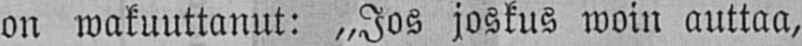on wakuuttanut: „Jos joskus woin auttaa,
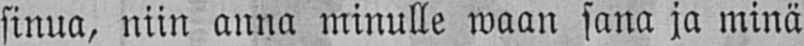sinua, niin anna minulle waan sana ja minä
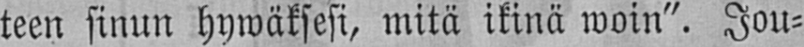teen sinun hywäksesi, mitä ikinä woin". Jou-
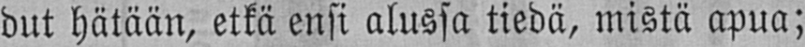dut hätään, etkä ensi alussa tiedä, mistä apua;
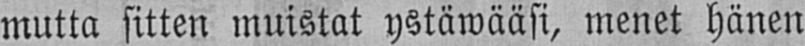mutta sitten muistat ystäwääsi, menet hänen
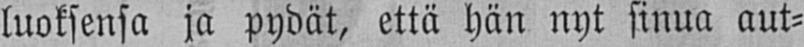luoksensa ja pydät, että hän nyt sinua aut-
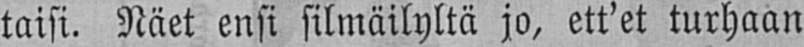taisi. Näet ensi silmäilyltä jo, ett'et turhaan
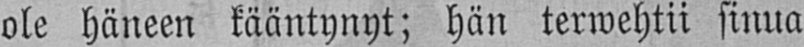ole häneen kääntynyt; hän terwehtii sinua
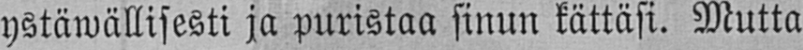ystäwällisesti ja puristaa sinun kättäsi. Mutta
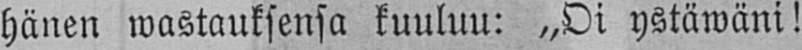hänen wastauksensa kuuluu: „Oi ystäwäni!
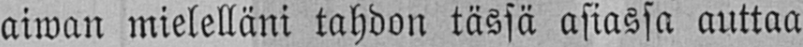aiwan mielelläni tahdon tässä asiassa auttaa
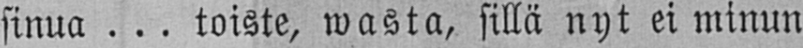sinua ... toiste, wasta, sillä nyt ei minun
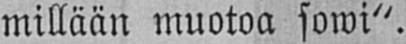millään muotoa sowi".
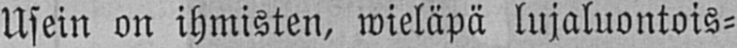Usein on ihmisten, wieläpä lujaluontois-
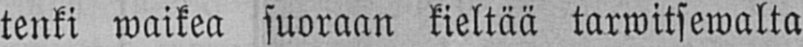tenki waikea suoraan kieltää tarwitsewalta
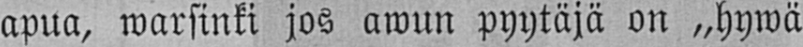apua, warsinki jos awun pyytäjä on „hywä
